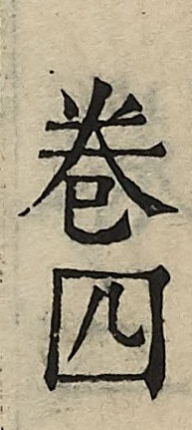卷四
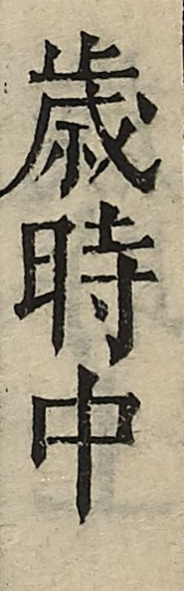歳時中
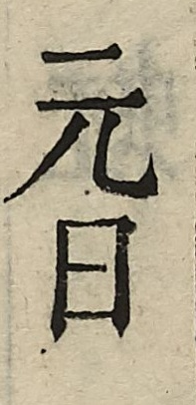元日
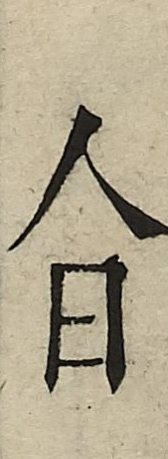人日
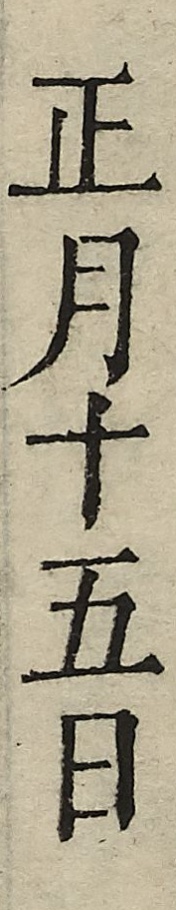正月十五日
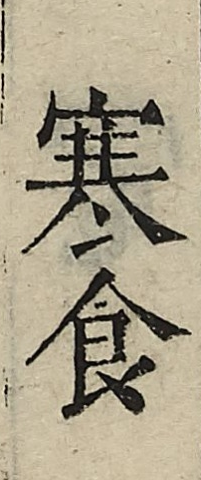寒食
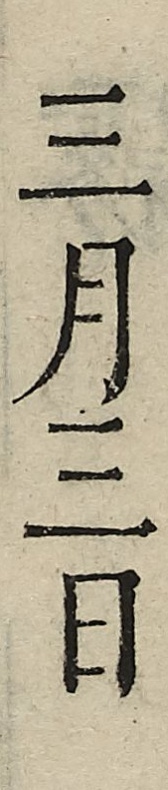三月三日
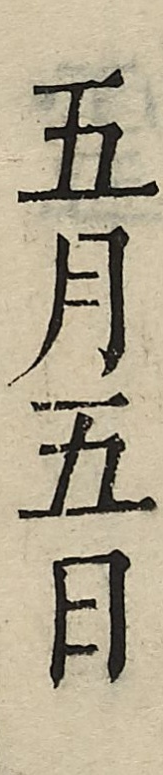五月五日
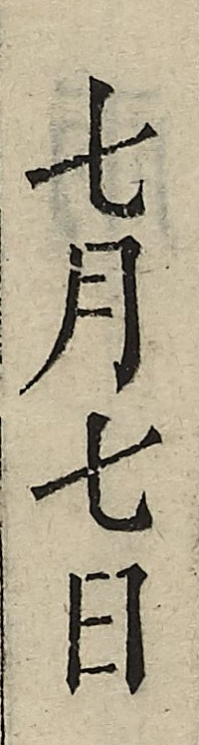七月七日
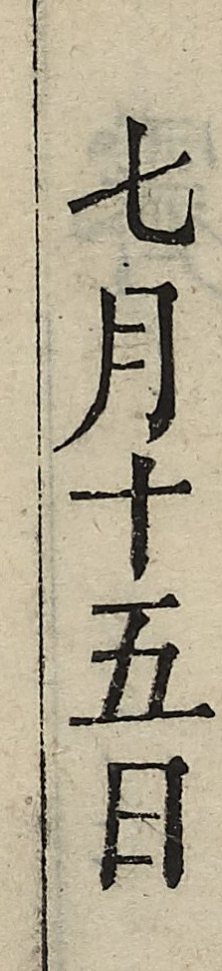七月十五日
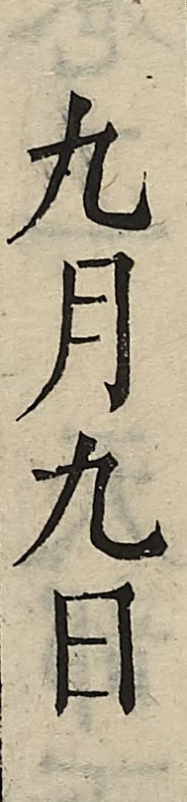九月九日
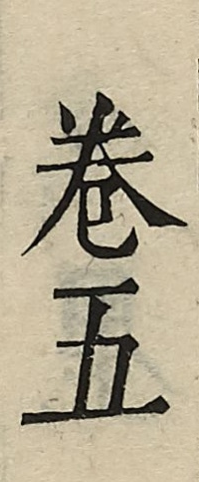卷五
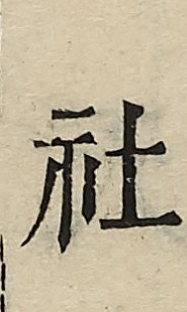社
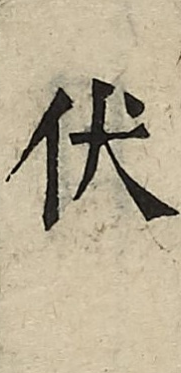伏
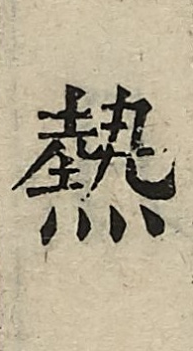熱
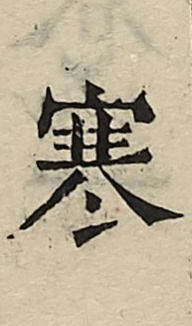寒
